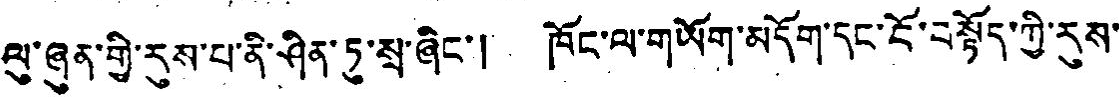ལུ་ཞུན་གྱི་རུས་པ་ནི་ཤིན་ཏུ་སྲ་ཞིང་། ཁོང་ལ་གཡོག་མདོག་དང་ངོ་བསྟོད་ཀྱི་རུས་
